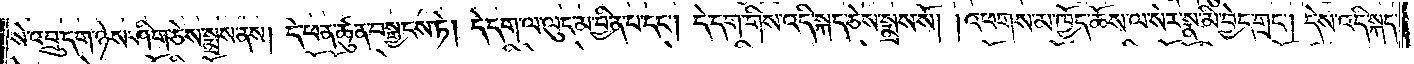སེ་འབྲུ་དག་ཉེས་ཤིག་ཅེས་སྨྲས་ནས། དེ་ཕན་ཚུན་བསྒྱངས་ཏེ། དེ་དག་ལ་ལུང་མ་བྱིན་པ་དང༌། དེ་དག་གིས་འདི་སྐད་ཅེས་སྨྲས་སོ། །འཕགས་མ་ཁྱོད་ཆོས་ལ་སེར་སྣ་མི་བྱེད་གྲང༌། དེས་འདི་སྐད་
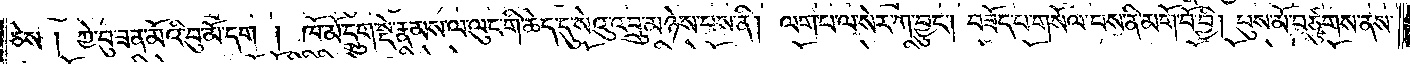ཅེས། ཀྱེ་བུ་ཟན་མོའི་བུ་མོ་དག །ཁོ་མོ་དྲུག་སྡེ་རྣམས་ལ་ལུང་གི་ཆེད་དུ་སེའུ་འབྲུ་མཉེས་པས་ནི། ལག་པ་ལ་སེར་ཀ་བྱུང༌། བཟོད་པ་གསོལ་བས་ནི་མགོ་བོ་བྱི། པུས་མོ་བཙུགས་ནས་
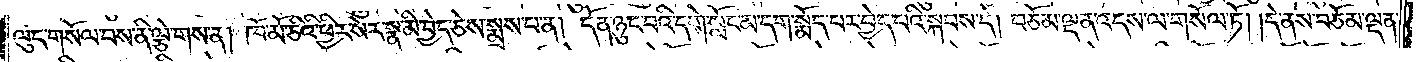ལུང་གསོལ་བས་ནི་ལྕེ་གས་ན། ཁོ་མོ་ཅིའི་ཕྱིར་སེར་སྣ་མི་བྱེད་ཅེས་སྨྲས་པ་ན། དོན་ཉུང་བའི་དགེ་སློང་མ་དག་སྨོད་པར་བྱེད་པའི་སྐབས་དེ། བཅོམ་ལྡན་འདས་ལ་གསོལ་ཏོ། །དེ་ནས་བཅོམ་ལྡན་
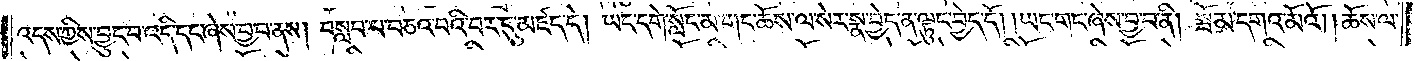འདས་ཀྱིས་བྱུང་བ་འདི་དང་ཞེས་བྱ་བ་ནས། བསླབ་པ་བཅའ་བའི་བར་དུ་མཛད་དེ། ཡང་དགེ་སློང་མ་གང་ཆོས་ལ་སེར་སྣ་བྱེད་ན་ལྟུང་བྱེད་དོ། །ཡང་གང་ཞེས་བྱ་བ་ནི། སྦོམ་དགའ་མོའོ། །ཆོས་ལ་
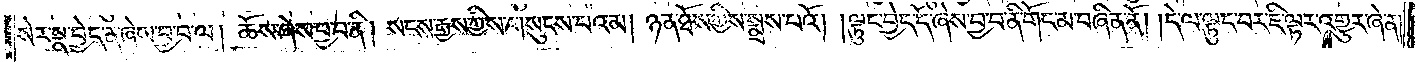སེར་སྣ་བྱེད་ན་ཞེས་བྱ་བ་ལ། ཆོས་ཞེས་བྱ་བ་ནི། སངས་རྒྱས་ཀྱིས་གསུངས་པའམ། ཉན་ཐོས་ཀྱིས་སྨྲས་པའོ། །ལྟུང་བྱེད་དོ་ཞེས་བྱ་བ་ནི་གོང་མ་བཞིན་ནོ། །དེ་ལ་ལྟུང་བར་ཇི་ལྟར་འགྱུར་ཞེ་ན།
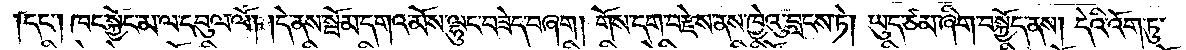།དང༌། ཁང་སྐྱོང་མ་ལ་དབུལ་ལོ། །དེ་ནས་སྦོམ་དགའ་མོས་ལྷུང་བཟེད་བཞག །གོས་དག་བརྫེས་ནས་ཁྱེའུ་བླངས་ཏེ། ཡུད་ཙམ་ཞིག་བསྐྱོད་ནས། དེའི་འོག་ཏུ་
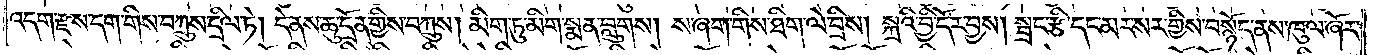འདག་རྫས་དག་གིས་བཀྲུས་དྲིལ་ཏེ། དེ་ནས་ཆུ་དྲོན་གྱིས་བཀྲུས། མིག་ཏུ་མིག་སྨན་བླུགས། ས་ཞག་གིས་ཐིག་ལེ་བྲིས། སྐྲའི་བྱི་དོར་བྱས། སྦྲང་རྩི་དང་མར་སར་གྱིས་བསྙོད་ནས་ཁུ་ལ་ཞོར་
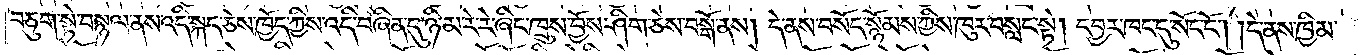བཅུག་སྟེ་བསྙལ་ནས་འདི་སྐད་ཅེས་ཁྱོད་ཀྱིས་འདི་བཞིན་དུ་ཉི་མ་རེ་རེ་ཞིང་ཁྲུས་བྱོས་ཤིག་ཅེས་བསྒོ་ནས། དེ་ནས་བསོད་སྙོམས་ཀྱིས་ཁུར་བསླང་སྟེ། དབྱར་ཁང་དུ་སོང་ངོ༌། །དེ་ནས་ཁྱིམ་
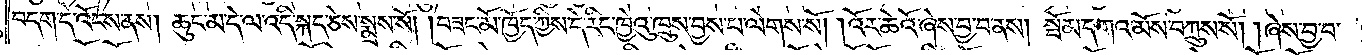བདག་དེ་འོངས་ནས། ཆུང་མ་དེ་ལ་འདི་སྐད་ཅེས་སྨྲས་སོ། །བཟང་མོ་ཁྱོད་ཀྱིས་དེ་རིང་ཁྱེའུ་ཁྲུས་བྱས་པ་ལེགས་སོ། །འོར་ཆེའོ་ཞེས་བྱ་བ་ནས། སྦོམ་དགའ་མོས་བཀྲུས་སོ། །ཞེས་བྱ་བ་
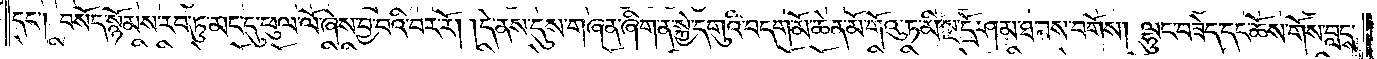དང༌། བསོད་སྙོམས་རབ་ཏུ་མང་དུ་ཕུལ་ལོ་ཞེས་བྱ་བའི་བར་རོ། །དེ་ནས་དུས་གཞན་ཞིག་ན་སྐྱེ་དགུའི་བདག་མོ་ཆེན་མོ་གོའུ་ཏ་མི་སྔ་དྲོ་ཤམ་ཐབས་བགོས། ལྷུང་བཟེད་དང་ཆོས་གོས་བླངས་
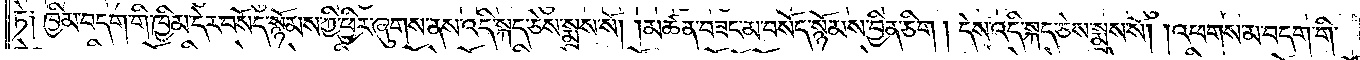ཏེ༑ ཁྱིམ་བདག་གི་ཁྱིམ་དེར་བསོད་སྙོམས་ཀྱི་ཕྱིར་ཞུགས་ནས་འདི་སྐད་ཅེས་སྨྲས་སོ། །མཚན་བཟང་མ་བསོད་སྙོམས་བྱིན་ཅིག །དེས་འདི་སྐད་ཅེས་སྨྲས་སོ། །འཕགས་མ་བདག་གི་
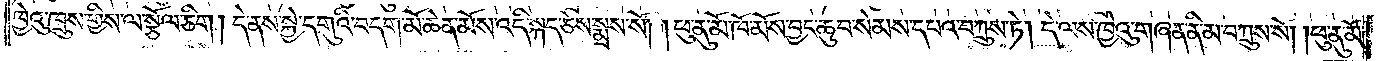ཁྱེའུ་ཁྲུས་གྱིས་ལ་སྩོལ་ཅིག །དེ་ནས་སྐྱེ་དགུའི་བདག་མོ་ཆེན་མོས་འདི་སྐད་ཅེས་སྨྲས་སོ། །ཕུ་ནུ་མོ་ཁོ་མོས་བྱང་ཆུབ་སེམས་དཔའ་བཀྲུས་ཏེ། དེ་ལས་ཁྱེའུ་གཞན་ནི་མ་བཀྲུས་སོ། །ཕུ་ནུ་མོ་
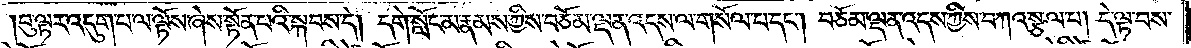བུ་ལྟར་འདུག་པ་ལ་ལྟོས་ཞེས་སྟོན་པའི་སྐབས་དེ། དགེ་སློང་མ་རྣམས་ཀྱིས་བཅོམ་ལྡན་འདས་ལ་གསོལ་བ་དང༌། བཅོམ་ལྡན་འདས་ཀྱིས་བཀའ་སྩལ་པ། དེ་ལྟ་བས་
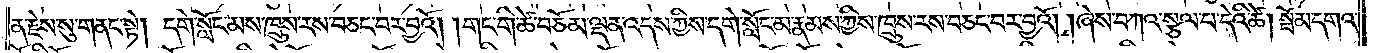ན་རྗེས་སུ་གནང་སྟེ། དགེ་སློང་མས་ཁྲུས་རས་བཅང་བར་བྱའོ། །གང་གི་ཚེ་བཅོམ་ལྡན་འདས་ཀྱིས་དགེ་སློང་མ་རྣམས་ཀྱིས་ཁྲུས་རས་བཅང་བར་བྱའོ། །ཞེས་བཀའ་སྩལ་པ་དེའི་ཚེ། སྦོམ་དགའ་
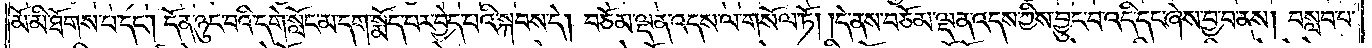མོ་མི་ཐོགས་པ་དང༌། དོན་ཉུང་བའི་དགེ་སློང་མ་དག་སྨོད་པར་བྱེད་པའི་སྐབས་དེ། བཅོམ་ལྡན་འདས་ལ་གསོལ་ཏོ། །དེ་ནས་བཅོམ་ལྡན་འདས་ཀྱིས་བྱུང་བ་འདི་དང་ཞེས་བྱ་བ་ནས། བསླབ་པ་
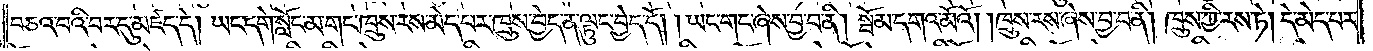བཅའ་བའི་བར་དུ་མཛད་དེ། ཡང་དགེ་སློང་མ་གང་ཁྲུས་རས་མེད་པར་ཁྲུས་བྱེད་ན་ལྟུང་བྱེད་དོ། །ཡང་གང་ཞེས་བྱ་བ་ནི། སྦོམ་དགའ་མོའོ། །ཁྲུས་རས་ཞེས་བྱ་བ་ནི། ཁྲུས་ཀྱི་རས་ཏེ། དེ་མེད་པར་
